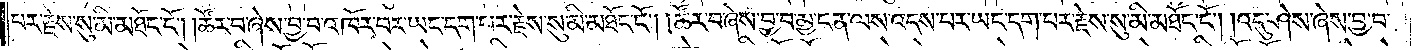པར་རྗེས་སུ་མི་མཐོང་ངོ༌། །ཚོར་བ་ཞེས་བྱ་བ་འཁོར་བར་ཡང་དག་པར་རྗེས་སུ་མི་མཐོང་ངོ༌། །ཚོར་བ་ཞེས་བྱ་བ་མྱ་ངན་ལས་འདས་པར་ཡང་དག་པར་རྗེས་སུ་མི་མཐོང་ངོ༌། །འདུ་ཤེས་ཞེས་བྱ་བ་
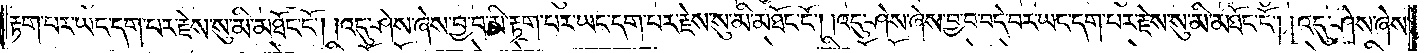རྟག་པར་ཡང་དག་པར་རྗེས་སུ་མི་མཐོང་ངོ༌། །འདུ་ཤེས་ཞེས་བྱ་བ་མི་རྟག་པར་ཡང་དག་པར་རྗེས་སུ་མི་མཐོང་ངོ༌། །འདུ་ཤེས་ཞེས་བྱ་བ་བདེ་བར་ཡང་དག་པར་རྗེས་སུ་མི་མཐོང་ངོ༌། །འདུ་ཤེས་ཞེས་
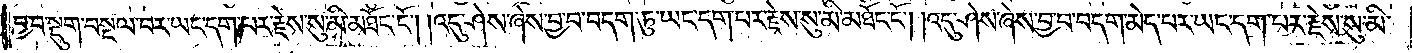བྱ་བ་སྡུག་བསྔལ་བར་ཡང་དག་པར་རྗེས་སུ་མི་མཐོང་ངོ༌། །འདུ་ཤེས་ཞེས་བྱ་བ་བདག་ཏུ་ཡང་དག་པར་རྗེས་སུ་མི་མཐོང་ངོ༌། །འདུ་ཤེས་ཞེས་བྱ་བ་བདག་མེད་པར་ཡང་དག་པར་རྗེས་སུ་མི་
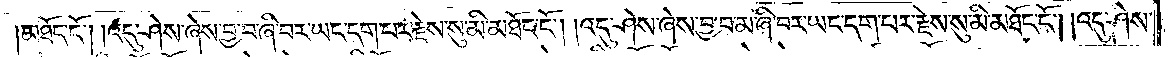མཐོང་ངོ༌། །འདུ་ཤེས་ཞེས་བྱ་བ་ཞི་བར་ཡང་དག་པར་རྗེས་སུ་མི་མཐོང་ངོ༌། །འདུ་ཤེས་ཞེས་བྱ་བ་མ་ཞི་བར་ཡང་དག་པར་རྗེས་སུ་མི་མཐོང་ངོ༌། །འདུ་ཤེས་
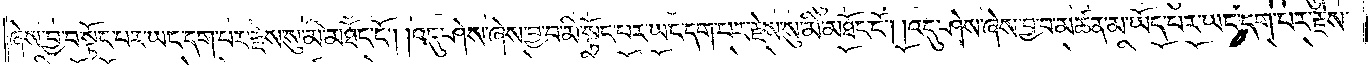ཞེས་བྱ་བ་སྟོང་པར་ཡང་དག་པར་རྗེས་སུ་མི་མཐོང་ངོ༌། །འདུ་ཤེས་ཞེས་བྱ་བ་མི་སྟོང་པར་ཡང་དག་པར་རྗེས་སུ་མི་མཐོང་ངོ༌། །འདུ་ཤེས་ཞེས་བྱ་བ་མཚན་མ་ཡོད་པར་ཡང་དག་པར་རྗེས་
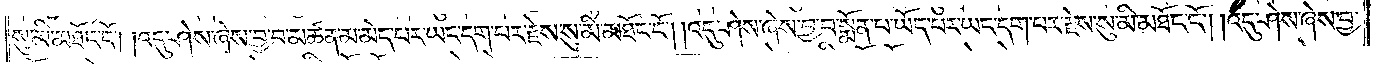སུ་མི་མཐོང་ངོ༌། །འདུ་ཤེས་ཞེས་བྱ་བ་མཚན་མ་མེད་པར་ཡང་དག་པར་རྗེས་སུ་མི་མཐོང་ངོ༌། །འདུ་ཤེས་ཞེས་བྱ་བ་སྨོན་པ་ཡོད་པར་ཡང་དག་པར་རྗེས་སུ་མི་མཐོང་ངོ༌། །འདུ་ཤེས་ཞེས་བྱ་
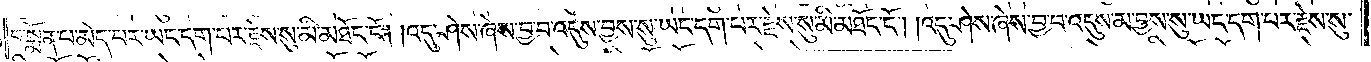བ་སྨོན་པ་མེད་པར་ཡང་དག་པར་རྗེས་སུ་མི་མཐོང་ངོ༌། །འདུ་ཤེས་ཞེས་བྱ་བ་འདུས་བྱས་སུ་ཡང་དག་པར་རྗེས་སུ་མི་མཐོང་ངོ༌། །འདུ་ཤེས་ཞེས་བྱ་བ་འདུས་མ་བྱས་སུ་ཡང་དག་པར་རྗེས་སུ་
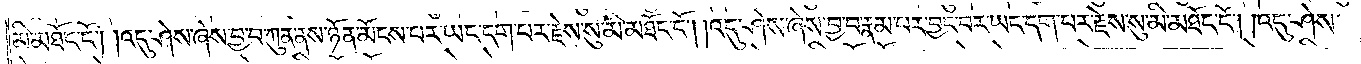མི་མཐོང་ངོ༌། །འདུ་ཤེས་ཞེས་བྱ་བ་ཀུན་ནས་ཉོན་མོངས་པར་ཡང་དག་པར་རྗེས་སུ་མི་མཐོང་ངོ༌། །འདུ་ཤེས་ཞེས་བྱ་བ་རྣམ་པར་བྱང་བར་ཡང་དག་པར་རྗེས་སུ་མི་མཐོང་ངོ༌། །འདུ་ཤེས་
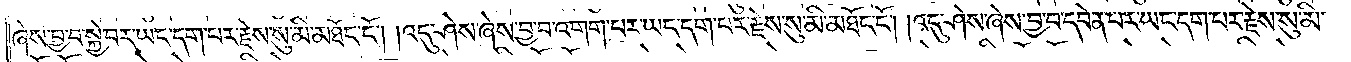ཞེས་བྱ་བ་སྐྱེ་བར་ཡང་དག་པར་རྗེས་སུ་མི་མཐོང་ངོ༌། །འདུ་ཤེས་ཞེས་བྱ་བ་འགག་པར་ཡང་དག་པར་རྗེས་སུ་མི་མཐོང་ངོ༌། །འདུ་ཤེས་ཞེས་བྱ་བ་དབེན་པར་ཡང་དག་པར་རྗེས་སུ་མི་
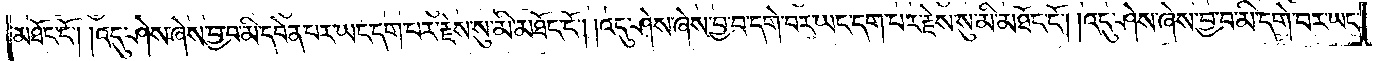མཐོང་ངོ༌། །འདུ་ཤེས་ཞེས་བྱ་བ་མི་དབེན་པར་ཡང་དག་པར་རྗེས་སུ་མི་མཐོང་ངོ༌། །འདུ་ཤེས་ཞེས་བྱ་བ་དགེ་བར་ཡང་དག་པར་རྗེས་སུ་མི་མཐོང་ངོ༌། །འདུ་ཤེས་ཞེས་བྱ་བ་མི་དགེ་བར་ཡང་
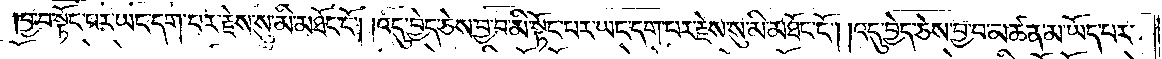བྱ་བ་སྟོང་པར་ཡང་དག་པར་རྗེས་སུ་མི་མཐོང་ངོ༌། །འདུ་བྱེད་ཅེས་བྱ་བ་མི་སྟོང་པར་ཡང་དག་པར་རྗེས་སུ་མི་མཐོང་ངོ༌། །འདུ་བྱེད་ཅེས་བྱ་བ་མཚན་མ་ཡོད་པར་
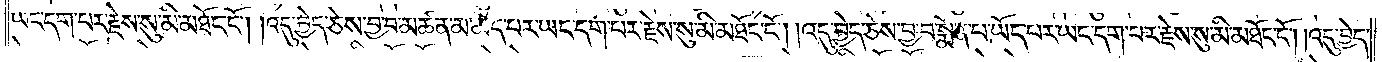ཡང་དག་པར་རྗེས་སུ་མི་མཐོང་ངོ༌། །འདུ་བྱེད་ཅེས་བྱ་བ་མཚན་མ་མེད་པར་ཡང་དག་པར་རྗེས་སུ་མི་མཐོང་ངོ༌། །འདུ་བྱེད་ཅེས་བྱ་བ་སྨོན་པ་ཡོད་པར་ཡང་དག་པར་རྗེས་སུ་མི་མཐོང་ངོ༌། །འདུ་བྱེད་
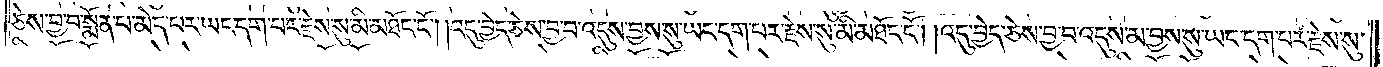ཅེས་བྱ་བ་སྨོན་པ་མེད་པར་ཡང་དག་པར་རྗེས་སུ་མི་མཐོང་ངོ༌། །འདུ་བྱེད་ཅེས་བྱ་བ་འདུས་བྱས་སུ་ཡང་དག་པར་རྗེས་སུ་མི་མཐོང་ངོ༌། །འདུ་བྱེད་ཅེས་བྱ་བ་འདུས་མ་བྱས་སུ་ཡང་དག་པར་རྗེས་སུ་
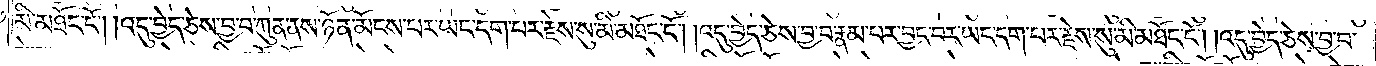མི་མཐོང་ངོ༌། །འདུ་བྱེད་ཅེས་བྱ་བ་ཀུན་ནས་ཉོན་མོངས་པར་ཡང་དག་པར་རྗེས་སུ་མི་མཐོང་ངོ༌། །འདུ་བྱེད་ཅེས་བྱ་བ་རྣམ་པར་བྱང་བར་ཡང་དག་པར་རྗེས་སུ་མི་མཐོང་ངོ༌། །འདུ་བྱེད་ཅེས་བྱ་བ་
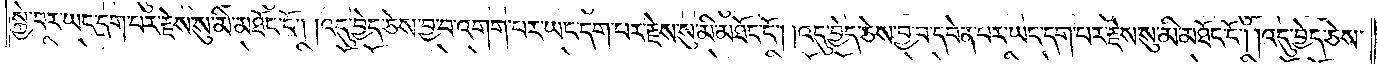སྐྱེ་བར་ཡང་དག་པར་རྗེས་སུ་མི་མཐོང་ངོ༌། །འདུ་བྱེད་ཅེས་བྱ་བ་འགག་པར་ཡང་དག་པར་རྗེས་སུ་མི་མཐོང་ངོ༌། །འདུ་བྱེད་ཅེས་བྱ་བ་དབེན་པར་ཡང་དག་པར་རྗེས་སུ་མི་མཐོང་ངོ༌། །འདུ་བྱེད་ཅེས་
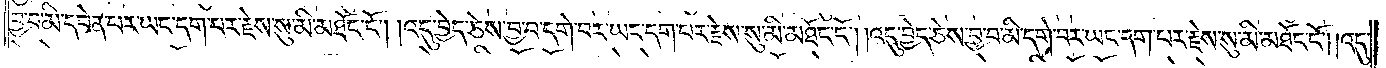བྱ་བ་མི་དབེན་པར་ཡང་དག་པར་རྗེས་སུ་མི་མཐོང་ངོ༌། །འདུ་བྱེད་ཅེས་བྱ་བ་དགེ་བར་ཡང་དག་པར་རྗེས་སུ་མི་མཐོང་ངོ༌། །འདུ་བྱེད་ཅེས་བྱ་བ་མི་དགེ་བར་ཡང་དག་པར་རྗེས་སུ་མི་མཐོང་ངོ༌། །འདུ་
